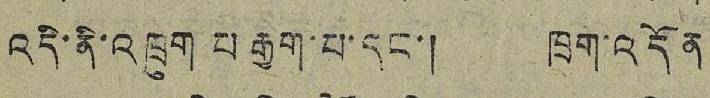འདི་ནི་འཁྲུག པ རྒྱག་པ་དང་། ཁྲག་འདོན
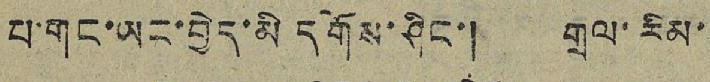པ་གང་ཡང་བྱེད་མི དགོས་ཤིང་། གྲལ་རིམ་
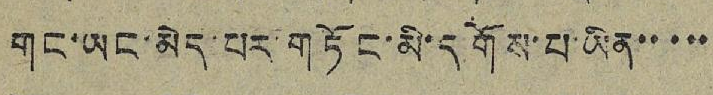གང་ཡང་མེད་པར་གཏོང་མི་དགོས་པ་ཡིན་་་་་
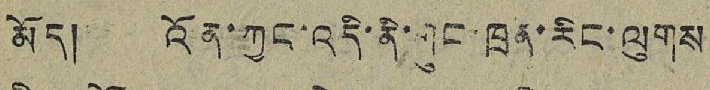མོད། འོན་ཀྱང་འདི་ནི་གུང་ཁྲན་རིང་ལུགས
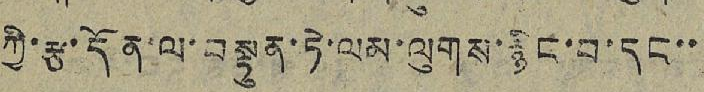ཀྱི་རྩ་དོན་ལ་བསྟུན་ཏེ་ལམ་ལུགས་རྙིང་བ་དང་་
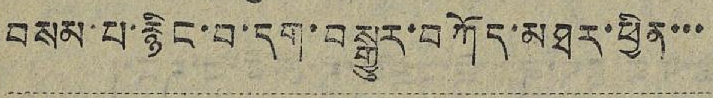བསམ་པ་རྙིང་བ་དག་བསྒྱུར་བཀོད་མཐར་ཕྱིན་་་
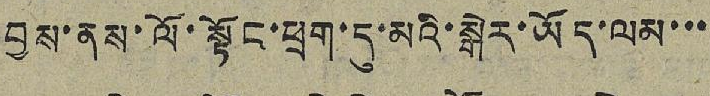བྱས་ནས་ལོ་སྟོང་ཕྲག་དུ་མའི་སྒེར་ཡོད་ལམ་་་
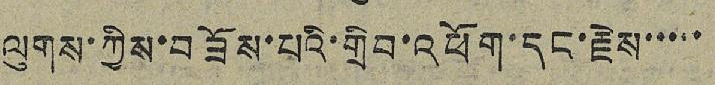ལུགས་ཀྱིས་བཟོས་པའི་གྲིབ་འཕོག་དང་རྗེས་་་་་
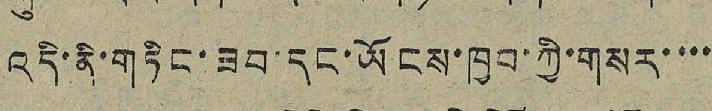འདི་ནི་གཏིང་ཟབ་དང་ཡོངས་ཁྱབ་ཀྱི་གསར་་་་
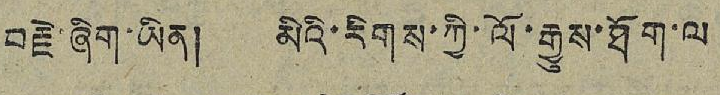བརྗེ་ཞིག་ཡིན། མིའི་རིགས་ཀྱི་ལོ་རྒྱུས་ཐོག་ལ
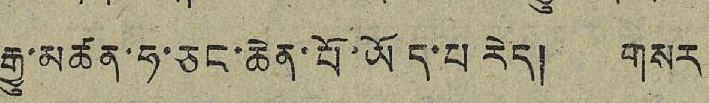རྒྱུ་མཚན་ཧ་ཅང་ཆེན་པོ་ཡོད་པ རེད། གསར
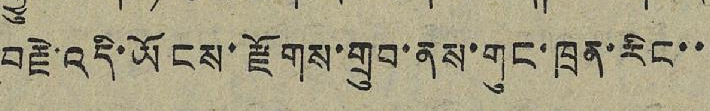བརྗེ་འདི་ཡོངས་རྫོགས་གྲུབ་ནས་གུང་ཁྲན་རིང་་
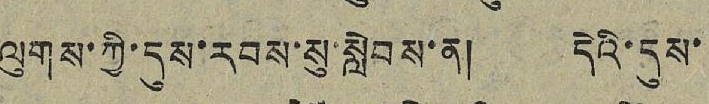ལུགས་ཀྱི་དུས་རབས་སུ་སླེབས་ན། དེའི་དུས
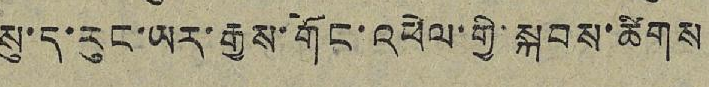སུ་ད་རུང་ཡར་རྒྱས་གོང་འཕེལ་གྱི་སྐབས་ཚིགས
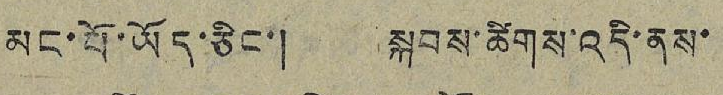མང་པོ་ཡོད་ཅིང་། སྐབས་ཚིགས་འདི་ནས་
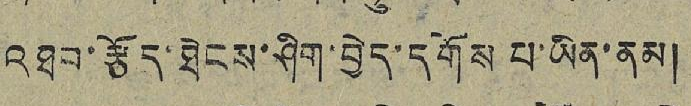འཐབ་རྩོད་ཐེངས་ཤིག་བྱེད་དགོས་པ་ཡིན་ནམ།
